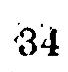34
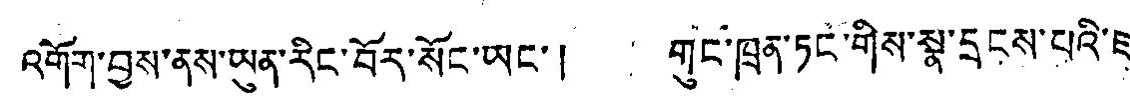འགོག་བྱས་ནས་ཡུན་རིང་བོར་སོང་ཡང་། གུང་ཁྲན་ཏང་གིས་སྣ་དྲངས་པའི་ཇ་
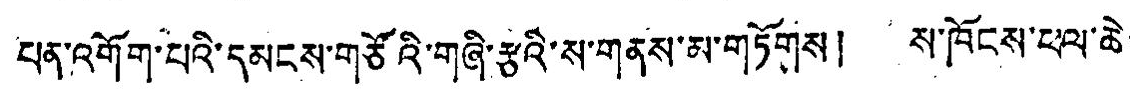པན་འགོག་པའི་དམངས་གཙོའི་གཞི་རྩའི་ས་གནས་མ་གཏོགས། ས་ཁོངས་ཕལ་ཆེ་
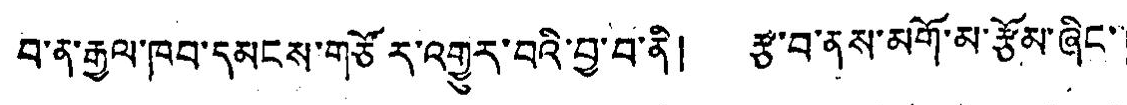བ་ན་རྒྱལ་ཁབ་དམངས་གཙོར་འགྱུར་བའི་བྱ་བ་ནི། རྩ་བ་ནས་མགོ་མ་རྩོམ་ཞིང་།
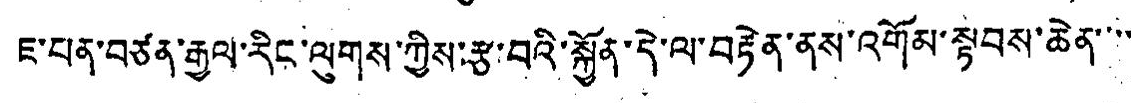ཇ་པན་བཙན་རྒྱལ་རིང་ལུས་ཀྱིས་རྩ་བའི་སྐྱོན་དེ་ལ་བརྟེན་ནས་འགོམ་སྟབས་ཆེན་་་་
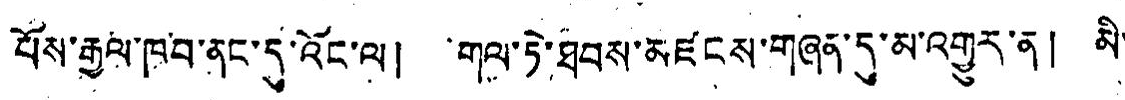པོས་རྒྱལ་ཁབ་ནང་དུ་འོང་ལ། གལ་ཏེ་ཐབས་མཛངས་གཞན་དུ་མ་འགྱུར་ན། མི་
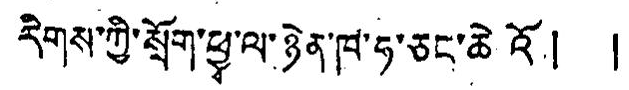རིགས་ཀྱི་སྲོག་ཕྱྭ་ལ་ཉེན་ཁ་ཧ་ཅང་ཆེའོ། །
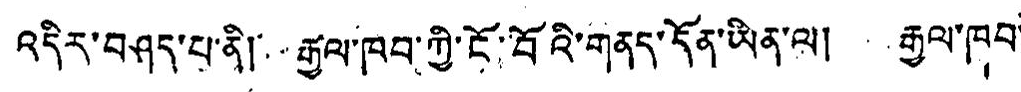འདིར་བཤད་པ་ནི། རྒྱལ་ཁབ་ཀྱི་ངོ་བོའི་གནད་དོན་ཡིན་ལ། རྒྱལ་ཁབ་
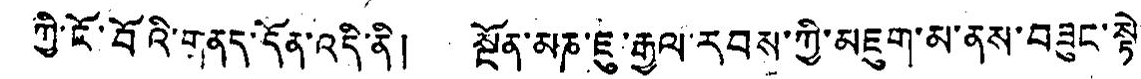ཀྱི་ངོ་བོའི་གནད་དོན་འདི་ནི། སྔོན་མཎ་ཇུ་རྒྱལ་རབས་ཀྱི་མཇུག་མ་ནས་བཟུང་སྟེ།
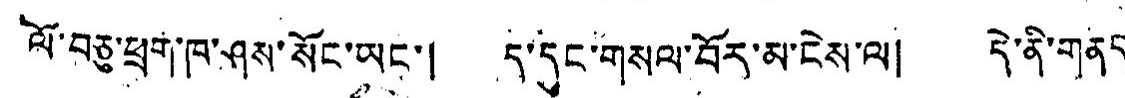ལོ་བཅུ་ཕྲག་ཁ་ཤས་སོང་ཡང་། ད་དུང་གསལ་བོར་མ་ངེས་ལ། དེ་ནི་གནད་
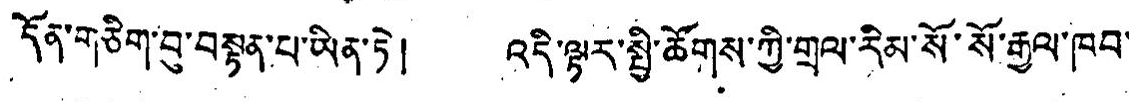དོན་གཅིག་བུ་བསྟན་པ་ཡིན་ཏེ། འདི་ལྟར་སྤྱི་ཚོགས་ཀྱི་གྲལ་རིམ་སོ་སོ་རྒྱལ་ཁབ་
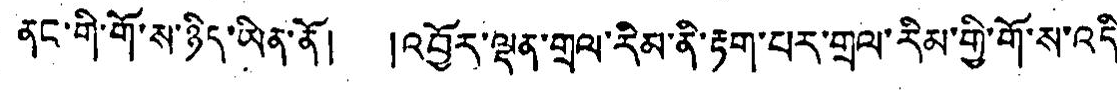ནང་གི་གོ་ས་ཉིད་ཡིན་ནོ། །འབྱོར་ལྡན་གྲལ་རིམ་ནི་རྟག་པར་གྲལ་རིམ་གྱི་གོ་ས་འདི་
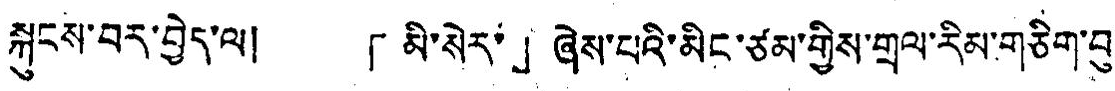སྐངས་བར་བྱེད་ལ། 「མི་སེར་」ཞེས་པའི་མིང་ཙམ་གྱིས་གྲལ་རིམ་གཅིག་བུ་
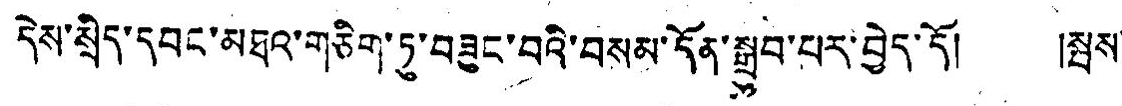དེས་སྲིད་དབང་མཐའ་གཅིག་ཏུ་བཟུང་བའི་བསམ་དོན་སྒྲུབ་པར་བྱེད་དོ། །སྦས་
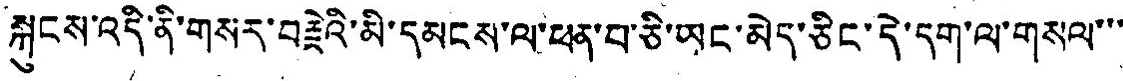སྐུངས་འདི་ནི་གསར་བརྗེའི་མི་དམངས་ལ་ཕན་བ་ཅི་ཡང་མེད་ཅིང་དེ་དག་ལ་གསལ་་་
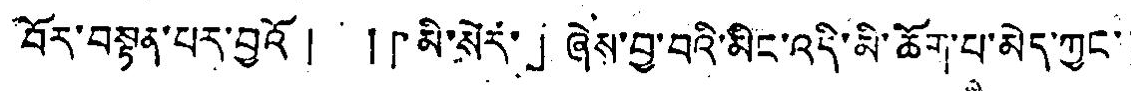བོར་བསྟན་པར་བྱའོ། །「མི་སེར་」ཞེས་བྱ་བའི་མིང་འདི་མི་ཆོག་པ་མེད་ཀྱང་།
